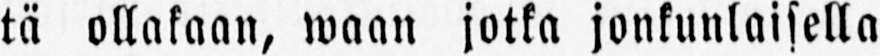tä ollakaan, waan jotka jonkunlaisella
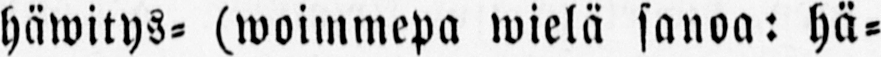häwitys- (woimmepa wielä sanoa: hä-
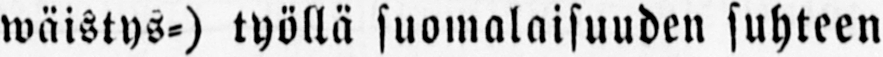wäistys-) työllä suomalaisuuden suhteen
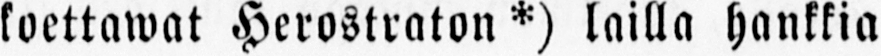koettawat Herostraton *) lailla hankkia
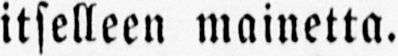itselleen mainetta.
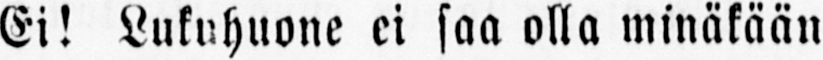Ei! Lukuhuone ei saa olla minäkään
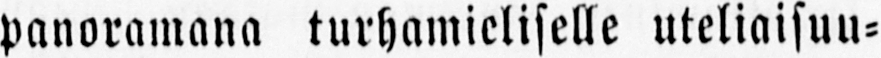panoramana turhamieliselle uteliaisuu-
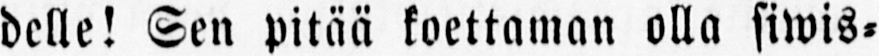delle! Sen pitää koettaman olla siwis-
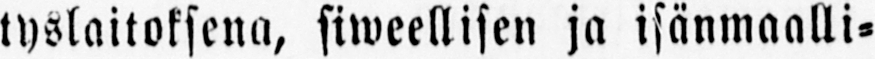tyslaitoksena, siweellisen ja isänmaalli-
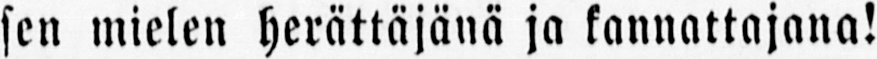sen mielen herättäjänä ja kannattajana!
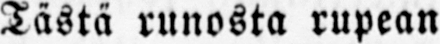Tästä runosta rupean
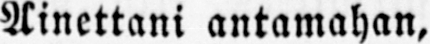Ainettani antamahan,
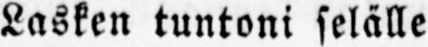Lasken tuntoni selälle
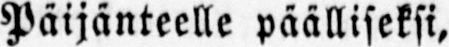Päijänteelle päälliseksi.
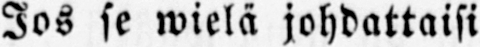Jos se wielä johdattaisi
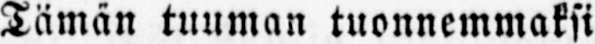Tämän tuuman tuonnemmaksi
